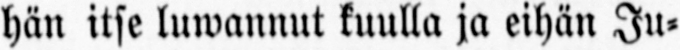hän itse luwannut kuulla ja eihän Ju-
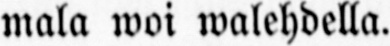mala woi walehdella.
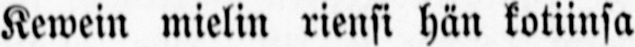Kewein mielin riensi hän kotiinsa
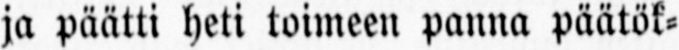ja päätti heti toimeen panna päätök-
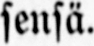sensä.
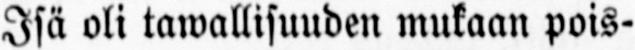Isä oli tawallisuuden mukaan pois-
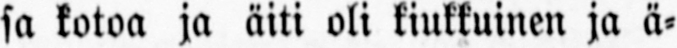sa kotoa ja äiti oli kiukkuinen ja ä-
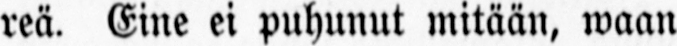reä. Eine ei puhunut mitään, waan
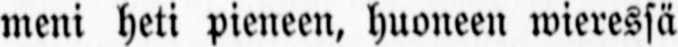meni heti pieneen, huoneen wieressä
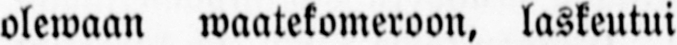olewaan waatekomeroon, laskeutui
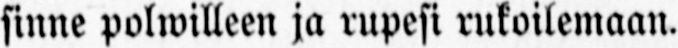sinne polwilleen ja rupesi rukoilemaan.
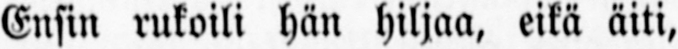Ensin rukoili hän hiljaa, eikä äiti,
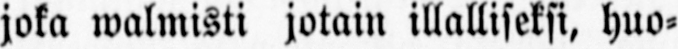joka walmisti jotain illalliseksi, huo-
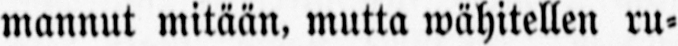mannut mitään, mntta wähitellen ru-
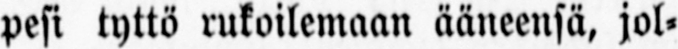pesi tyttö rukoilemaan ääneensä, jol-
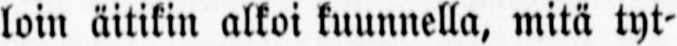loin äitikin alkoi kuunnella, mitä tyt-
